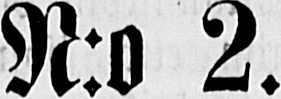N:o 2.
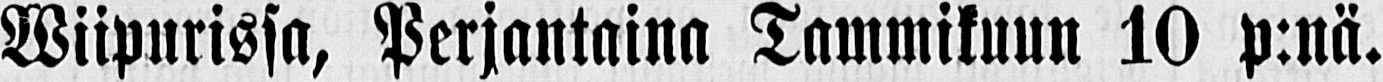Wiipurissa, Perjantaina Tammikuun 10 p:nä.
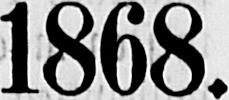1868.
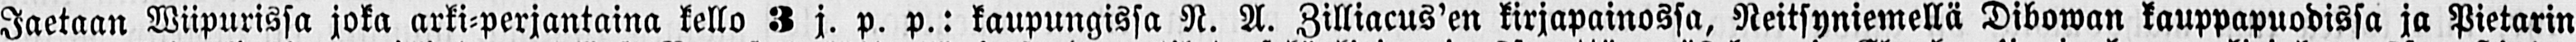Jaetaan Wiipurissa joka arki-perjantaina kello 3 j. p.p.: kaupungissa N.A. Zilliacus'en kirjapainossa, Neitsyniemellä Dibowan kauppapuodissa ja Pietarin
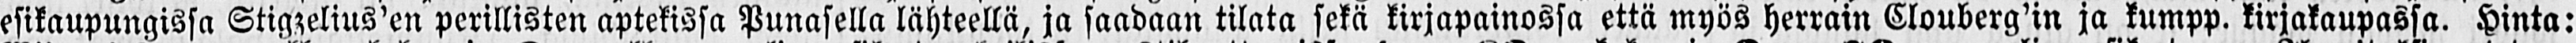esikaupungissa Stigzelius'en perillisten aptekissa Punasella lähteellä, ja saadaan tilata sekä kirjapainossa että myös herrain Clouberg'in ja kumpp. kirjakaupassa. Hinta:
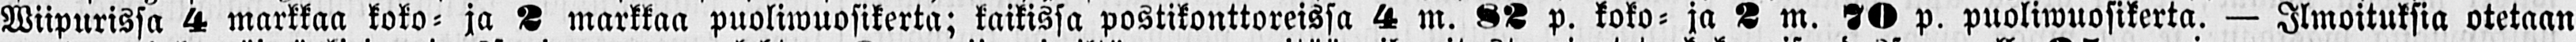Wiipurissa 4 markkaa koko: ja 2 markkaa puoliwuosikerta; kaikissa postikonttoreissa 4 m. 82 p. koko- ja 2 m. 70 p. puoliwuosikerta. — Ilmoituksia otetaan
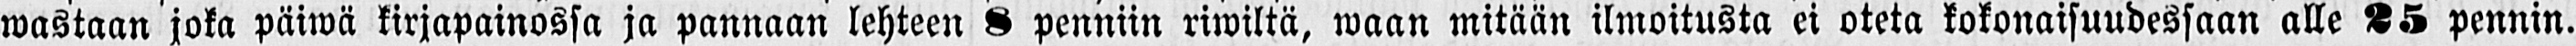wastaan joka päiwä kirjapainossa ja pannaan lehteen 8 penniin riwiltä, waan mitään ilmoitusta ei oteta kokonaisuudessaan alle 25 pennin.
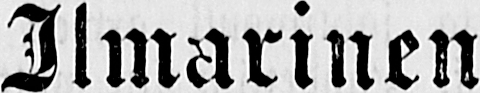Ilmarinen
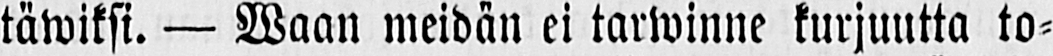täwiksi. — Waan meidän ei tarwinne kurjuutta to-
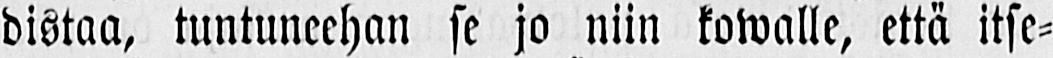distaa, tuntuneehan se jo niin kowalle, että itse-
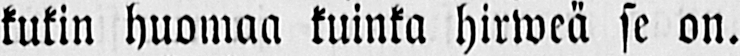kukin huomaa kuinka hirweä se on.
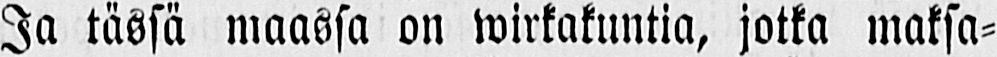Ja tässä maassa on wirkakuntia, jotka maksa-
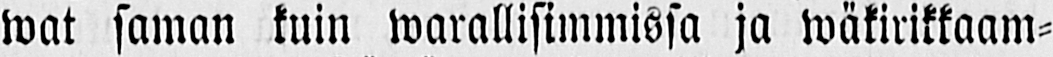wat saman kuin warallisimmissa ja wäkirikkaam-
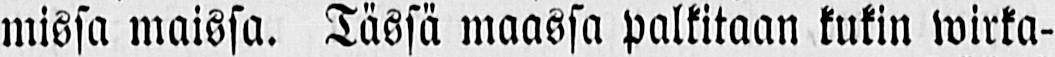missa maissa. Tässä maassa palkitaan kukin wirka-
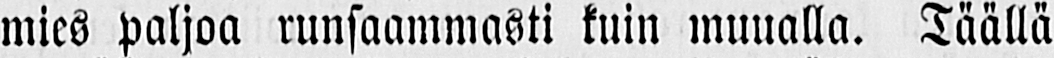mies paljoa runsaammasti kuin muualla. Täällä
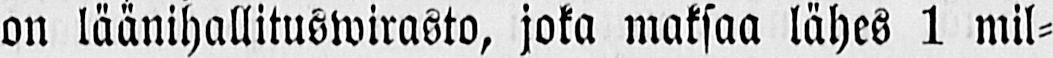on läänihallituswirasto, joka maksaa lähes 1 mil-
